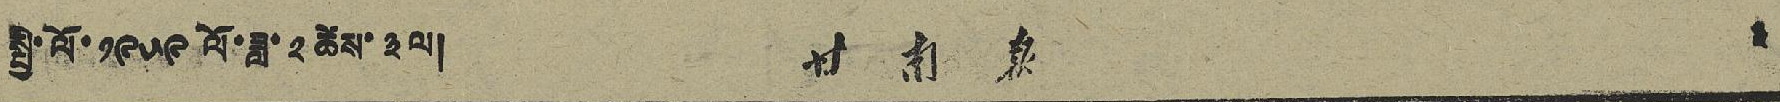སྤྱི་ལོ་ ༡༩༥༩ ལོ་ཟླ་ ༢ ཚེས་ ༣ ལ། 甘 南 報  ༣
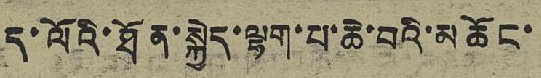ད་ལོའི་ཐོན་སྐྱེད་ལྷག་པ་ཆེ་བའི་མཆོང་
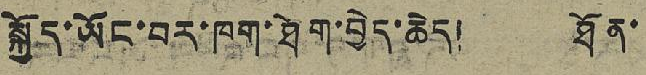སྐྱོད་ཡོང་བར་ཁག་ཐེག་བྱེད་ཆེད། ཐོན་
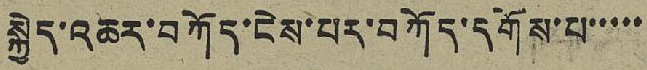སྐྱེད་འཆར་བཀོད་ངེས་པར་བཀོད་དགོས་པ་་་་་
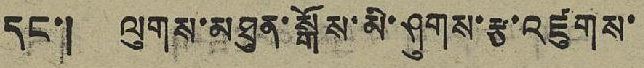དང་། ལུགས་མཐུན་སྒོས་མི་ཤུགས་རྩ་འཛུགས་
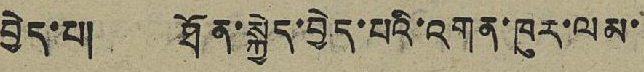བྱེད་པ། ཐོན་སྐྱེད་བྱེད་པའི་འགན་ཁུར་ལམ་
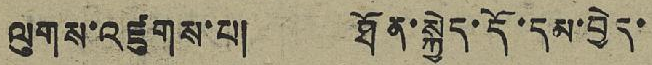ལུགས་འཛུགས་པ། ཐོན་སྐྱེད་དོ་དམ་བྱེད་
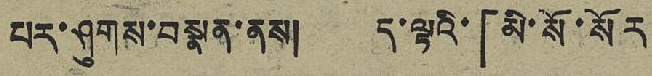པར་ཤུགས་བསྣན་ནས། ད་ལྟའི་「མི་སོ་སོར
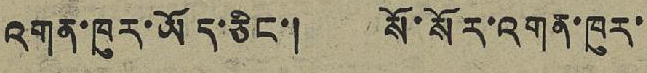འགན་ཁུར་ཡོད་ཅིང་། སོ་སོར་འགན་ཁྲར་
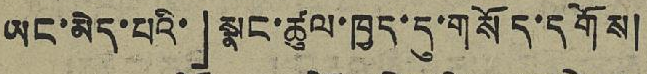ཡང་མེད་པའི་」སྣང་ཚུལ་ཁྱད་དུ་གསོད་དགོས།
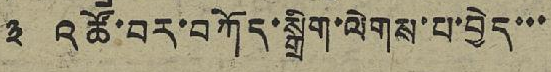༣ འཚོ་བར་བཀོད་སྒྲིག་ལེགས་པ་བྱེད་་་
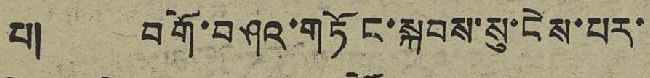པ། བགོ་བཤའ་གཏོང་སྐབས་སུ་ངེས་པར་
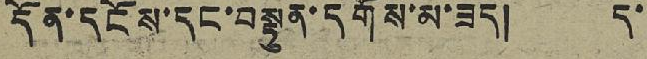དོན་དངོས་དང་བསྟུན་དགོས་མ་ཟད། ད་
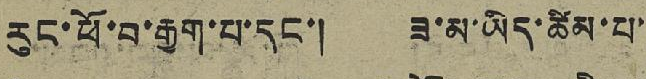རུང་ཕོ་བ་རྒྱག་པ་དང་། ཟ་མ་ཡིད་ཚིམ་པ་
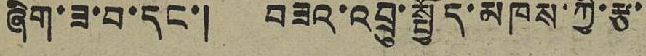ཞིག་ཟ་བ་དང་། བཟའ་འབྲུ་སྤྱོད་མཁས་ཀྱི་རྩ་
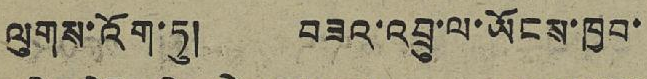ལུགས་འོག་ཏུ། བཟའ་འབྲུ་ལ་ཡོངས་ཁྱབ་
